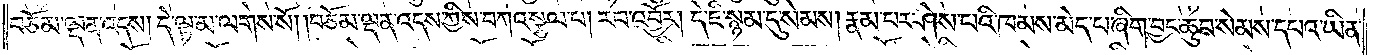བཅོམ་ལྡན་འདས། དེ་ལྟ་མ་ལགས་སོ། །བཅོམ་ལྡན་འདས་ཀྱིས་བཀའ་སྩལ་པ། རབ་འབྱོར། དེ་ཇི་སྙམ་དུ་སེམས། རྣམ་པར་ཤེས་པའི་ཁམས་མེད་པ་ཞིག་བྱང་ཆུབ་སེམས་དཔའ་ཡིན་
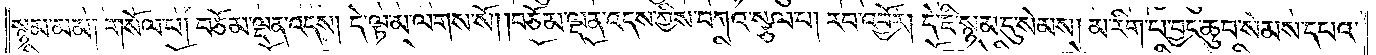སྙམ་མམ། གསོལ་པ། བཅོམ་ལྡན་འདས། དེ་ལྟ་མ་ལགས་སོ། །བཅོམ་ལྡན་འདས་ཀྱིས་བཀའ་སྩལ་པ། རབ་འབྱོར། དེ་ཇི་སྙམ་དུ་སེམས། མ་རིག་པ་བྱང་ཆུབ་སེམས་དཔའ་
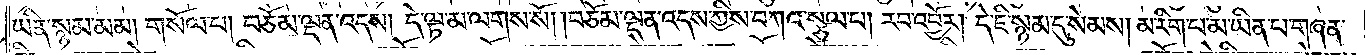ཡིན་སྙམ་མམ། གསོལ་པ། བཅོམ་ལྡན་འདས། དེ་ལྟ་མ་ལགས་སོ། །བཅོམ་ལྡན་འདས་ཀྱིས་བཀའ་སྩལ་པ། རབ་འབྱོར། དེ་ཇི་སྙམ་དུ་སེམས། མ་རིག་པ་མ་ཡིན་པ་གཞན་
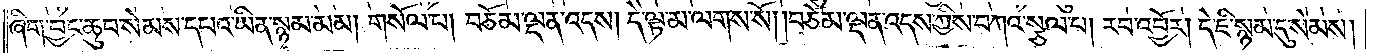ཞིག་བྱང་ཆུབ་སེམས་དཔའ་ཡིན་སྙམ་མམ། གསོལ་པ། བཅོམ་ལྡན་འདས། དེ་ལྟ་མ་ལགས་སོ། །བཅོམ་ལྡན་འདས་ཀྱིས་བཀའ་སྩལ་པ། རབ་འབྱོར། དེ་ཇི་སྙམ་དུ་སེམས།
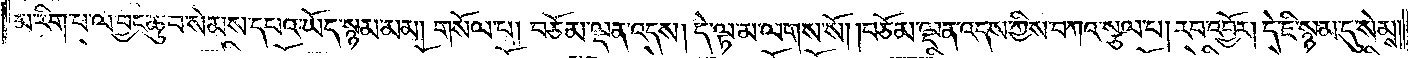མ་རིག་པ་ལ་བྱང་ཆུབ་སེམས་དཔའ་ཡོད་སྙམ་མམ། གསོལ་པ། བཅོམ་ལྡན་འདས། དེ་ལྟ་མ་ལགས་སོ། །བཅོམ་ལྡན་འདས་ཀྱིས་བཀའ་སྩལ་པ། རབ་འབྱོར། དེ་ཇི་སྙམ་དུ་སེམས།
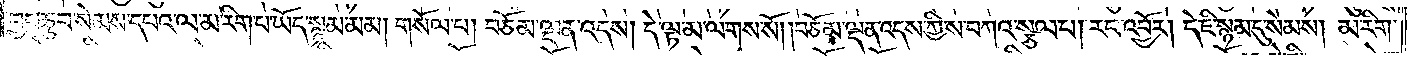བྱང་ཆུབ་སེམས་དཔའ་ལ་མ་རིག་པ་ཡོད་སྙམ་མམ། གསོལ་པ། བཅོམ་ལྡན་འདས། དེ་ལྟ་མ་ལགས་སོ། །བཅོམ་ལྡན་འདས་ཀྱིས་བཀའ་སྩལ་པ། རབ་འབྱོར། དེ་ཇི་སྙམ་དུ་སེམས། མ་རིག་
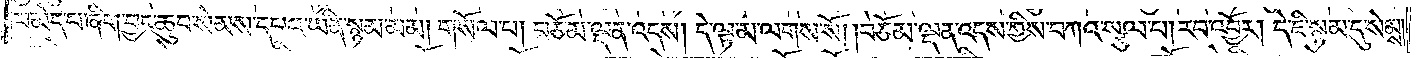པ་མེད་པ་ཞིག་བྱང་ཆུབ་སེམས་དཔའ་ཡིན་སྙམ་མམ། གསོལ་པ། བཅོམ་ལྡན་འདས། དེ་ལྟ་མ་ལགས་སོ། །བཅོམ་ལྡན་འདས་ཀྱིས་བཀའ་སྩལ་པ། རབ་འབྱོར། དེ་ཇི་སྙམ་དུ་སེམས།
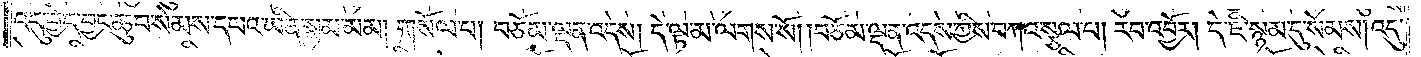འདུ་བྱེད་བྱང་ཆུབ་སེམས་དཔའ་ཡིན་སྙམ་མམ། གསོལ་པ། བཅོམ་ལྡན་འདས། དེ་ལྟ་མ་ལགས་སོ། །བཅོམ་ལྡན་འདས་ཀྱིས་བཀའ་སྩལ་པ། རབ་འབྱོར། དེ་ཇི་སྙམ་དུ་སེམས། འདུ་
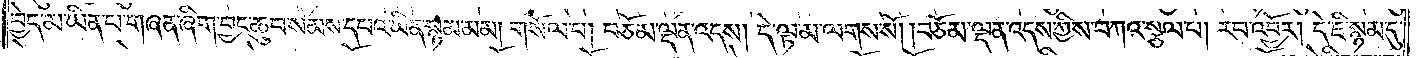བྱེད་མ་ཡིན་པ་གཞན་ཞིག་བྱང་ཆུབ་སེམས་དཔའ་ཡིན་སྙམ་མམ། གསོལ་པ། བཅོམ་ལྡན་འདས། དེ་ལྟ་མ་ལགས་སོ། །བཅོམ་ལྡན་འདས་ཀྱིས་བཀའ་སྩལ་པ། རབ་འབྱོར། དེ་ཇི་སྙམ་དུ་
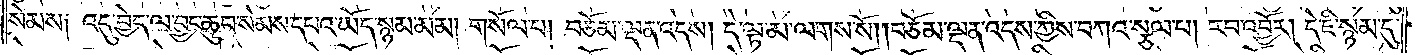སེམས༑ འདུ་བྱེད་ལ་བྱང་ཆུབ་སེམས་དཔའ་ཡོད་སྙམ་མམ། གསོལ་པ། བཅོམ་ལྡན་འདས། དེ་ལྟ་མ་ལགས་སོ། །བཅོམ་ལྡན་འདས་ཀྱིས་བཀའ་སྩལ་པ། རབ་འབྱོར། དེ་ཇི་སྙམ་དུ་
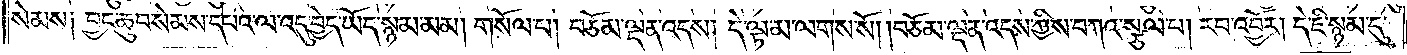སེམས༑ བྱང་ཆུབ་སེམས་དཔའ་ལ་འདུ་བྱེད་ཡོད་སྙམ་མམ། གསོལ་པ། བཅོམ་ལྡན་འདས། དེ་ལྟ་མ་ལགས་སོ། །བཅོམ་ལྡན་འདས་ཀྱིས་བཀའ་སྩལ་པ། རབ་འབྱོར། དེ་ཇི་སྙམ་དུ་
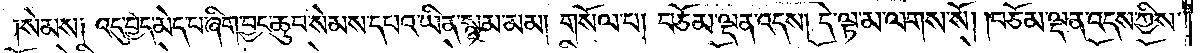སེམས༑ འདུ་བྱེད་མེད་པ་ཞིག་བྱང་ཆུབ་སེམས་དཔའ་ཡིན་སྙམ་མམ། གསོལ་པ། བཅོམ་ལྡན་འདས། དེ་ལྟ་མ་ལགས་སོ། །བཅོམ་ལྡན་འདས་ཀྱིས་
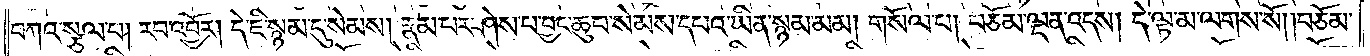བཀའ་སྩལ་པ། རབ་འབྱོར། དེ་ཇི་སྙམ་དུ་སེམས། རྣམ་པར་ཤེས་པ་བྱང་ཆུབ་སེམས་དཔའ་ཡིན་སྙམ་མམ། གསོལ་པ། བཅོམ་ལྡན་འདས། དེ་ལྟ་མ་ལགས་སོ། །བཅོམ་
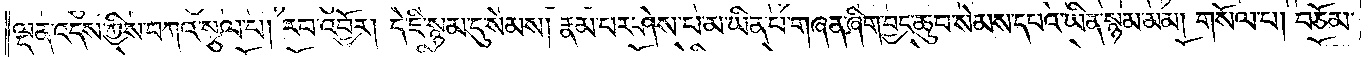ལྡན་འདས་ཀྱིས་བཀའ་སྩལ་པ། རབ་འབྱོར། དེ་ཇི་སྙམ་དུ་སེམས། རྣམ་པར་ཤེས་པ་མ་ཡིན་པ་གཞན་ཞིག་བྱང་ཆུབ་སེམས་དཔའ་ཡིན་སྙམ་མམ། གསོལ་པ། བཅོམ་
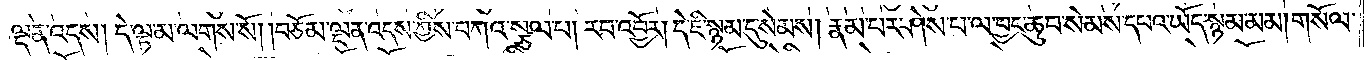ལྡན་འདས། དེ་ལྟ་མ་ལགས་སོ། །བཅོམ་ལྡན་འདས་ཀྱིས་བཀའ་སྩལ་པ། རབ་འབྱོར། དེ་ཇི་སྙམ་དུ་སེམས། རྣམ་པར་ཤེས་པ་ལ་བྱང་ཆུབ་སེམས་དཔའ་ཡོད་སྙམ་མམ། གསོལ་
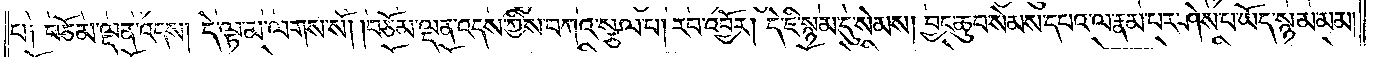པ༑ བཅོམ་ལྡན་འདས། དེ་ལྟ་མ་ལགས་སོ། །བཅོམ་ལྡན་འདས་ཀྱིས་བཀའ་སྩལ་པ། རབ་འབྱོར། དེ་ཇི་སྙམ་དུ་སེམས། བྱང་ཆུབ་སེམས་དཔའ་ལ་རྣམ་པར་ཤེས་པ་ཡོད་སྙམ་མམ།
